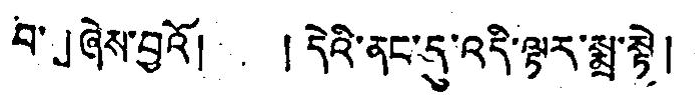བ་」ཞེས་བྱའོ། ། དེའི་ནང་དུ་འདི་ལྟར་སྨྲ་སྟེ།
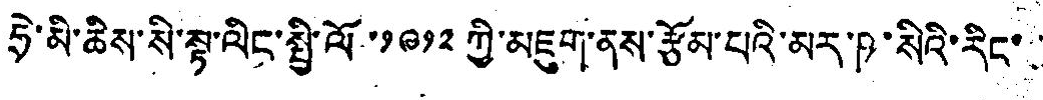ཧྲེ་མི་ཆིས་སི་སྟ་ལིང་སྤྱི་ལོ་༡༩༡༢ ཀྱི་མཇུག་ནས་རྩོམ་པའི་མར་ཥ་སིའི་རིང་
